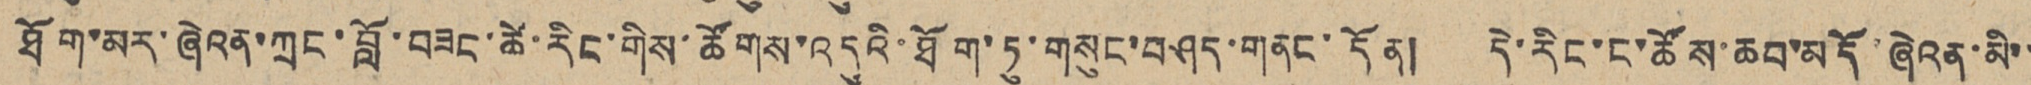ཐོག་མར་ཞེའན་ཀྲང་བློ་བཟང་ཚེ་རིང་གིས་ཚོགས་འདུའི་ཐོག་ཏུ་གསུང་བཤད་གནང་དོན། དེ་རིང་ང་ཚོས་ཆབ་མདོ་ཞེའན་མི་་
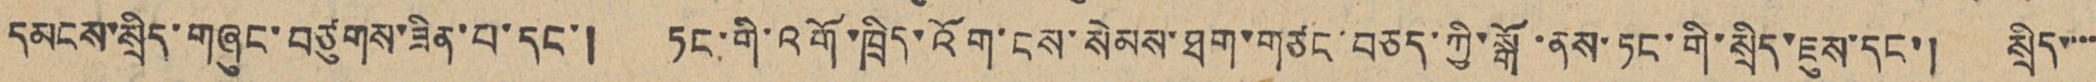དམངས་སྲིད་གཞུང་བཙུགས་ཟིན་པ་དང་། ཏང་གི་འགོ་ཁྲིད་འོག་ངས་སེམས་ཐག་གཙང་བཅད་ཀྱི་སྒོ་ནས་ཏང་གི་སྲིད་ཇུས་དང་། སྲིད་་་་
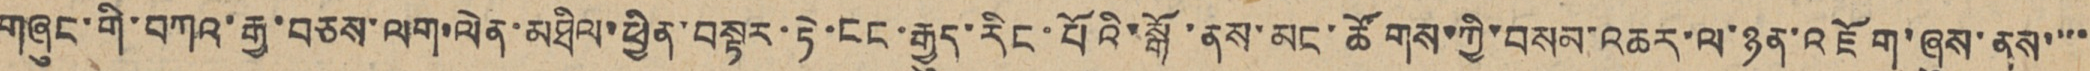གཞུང་གི་བཀའ་རྒྱ་བཅས་ལག་ལེན་མཐིལ་ཕྱིན་བསྟར་ཏེ་ངང་རྒྱུད་རིང་པོའི་སྒོ་ནས་མང་ཚོགས་ཀྱི་བསམ་འཆར་ལ་ཉན་འཇོག་ཞུས་ནས་་་་
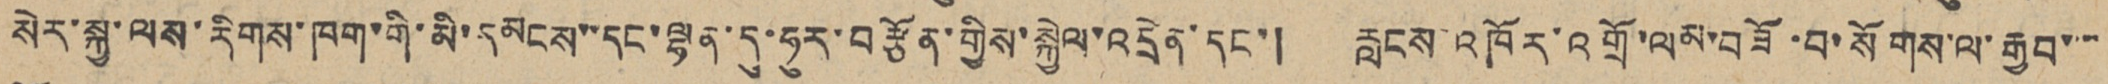སེར་སྐྱ་ལས་རིགས་ཁག་གི་མི་དམངས་དང་ལྷན་དུ་ཧུར་བརྩོན་གྱིས་སྐྱེལ་འདྲེན་དང་། རླངས་འཁོར་འགྲོ་ལམ་བཟོ་བ་སོགས་ལ་རྒྱབ་་་་
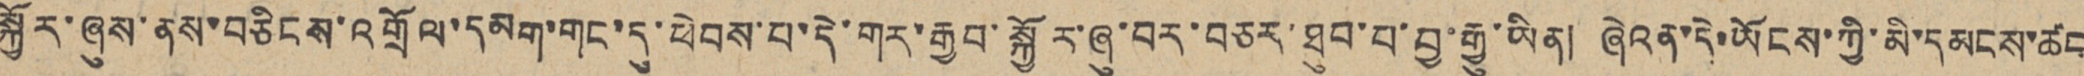སྐྱོར་ཞུས་ནས་བཅིངས་འགྲོལ་དམག་གང་དུ་ཕེབས་པ་དེ་གར་རྒྱབ་སྐྱོར་ཞུ་བར་བཅར་ཐུབ་པ་བྱ་རྒྱུ་ཡིན། ཞེའན་དེ་ཡོངས་ཀྱི་མི་དམངས་ཚང
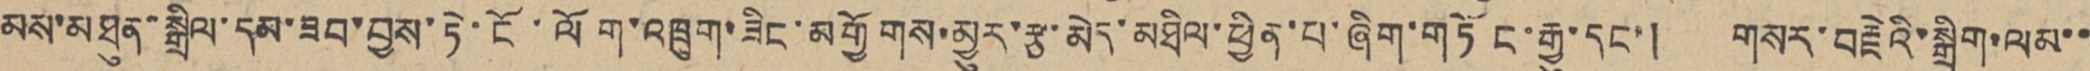མས་མཐུན་སྒྲིལ་དམ་ཟབ་བྱས་ཏེ་ངོ་ལོག་འཁྲུག་ཟིང་མགྱོགས་མྱུར་རྩ་མེད་མཐིལ་ཕྱིན་པ་ཞིག་གཏོང་རྒྱུ་དང་། གསར་བརྗེའི་སྒྲིག་ལམ་་
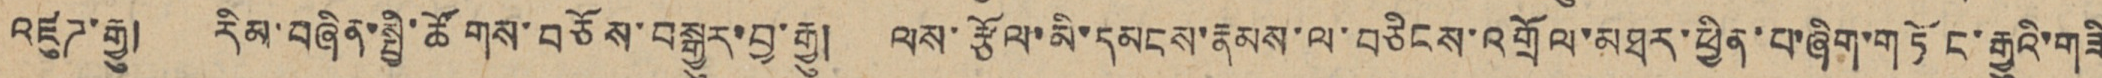འཛུཊ་རྒྱུ། རིམ་བཞིན་སྤྱི་ཚོགས་བཅོས་བསྒྱུར་བྱ་རྒྱུ། ལས་རྩོལ་མི་དམངས་རྣམས་ལ་བཅིངས་འགྲོལ་མཐར་ཕྱིན་པ་ཞིག་གཏོང་རྒྱུའི་གཟི
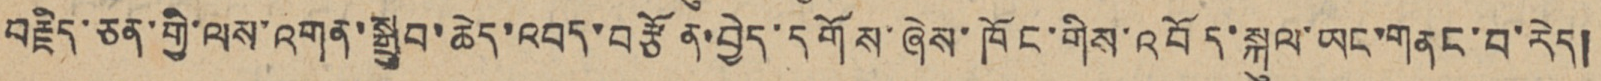བརྗིད་ཅན་གྱི་ལས་འགན་སྒྲུབ་ཆེད་འབད་བརྩོན་བྱེད་དགོས་ཞེས་ཁོང་གིས་འབོད་སྐུལ་ཡང་གནང་བ་རེད།
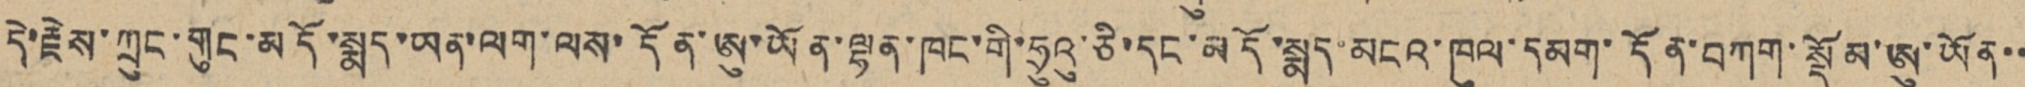དེ་རྗེས་ཀྲུང་གུང་མདོ་སྨད་ཡན་ལག་ལས་དོན་ཨུ་ཡོན་ལྷན་ཁང་གི་ཧྲུའུ་ཅི་དང་མདོ་སྨད་མངའ་ཁུལ་དམག་དོན་བཀག་སྡོམ་ཨུ་ཡོན་་
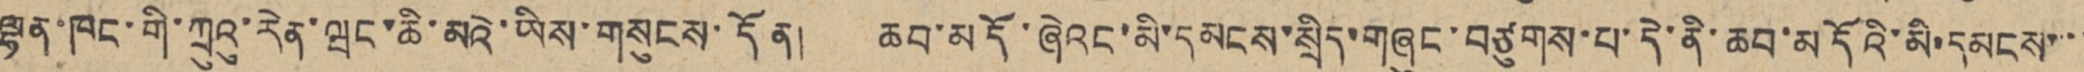ལྷན་ཁང་གི་ཀྲུའུ་རེན་ཝང་ཆི་མའེ་ཡིས་གསུངས་དོན། ཆབ་མདོ་ཞེའང་མི་དམངས་སྲིད་གཞུང་བཙུགས་པ་དེ་ནི་ཆབ་མདོའི་མི་དམངས་་་
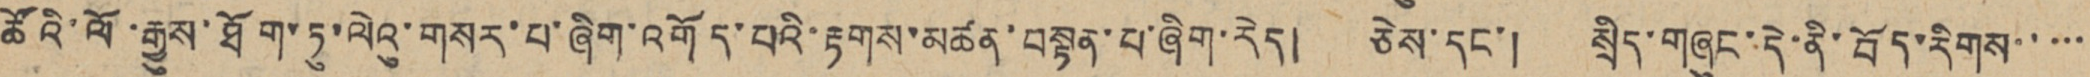ཚོའི་ལོ་རྒྱུས་ཐོག་ཏུ་ལེའུ་གསར་པ་ཞིག་འགོད་པའི་རྟགས་མཚན་བསྟན་པ་ཞིག་རེད། ཅེས་དང་། སྲིད་གཞུང་དེ་ནི་བོད་རིགས་་་་་
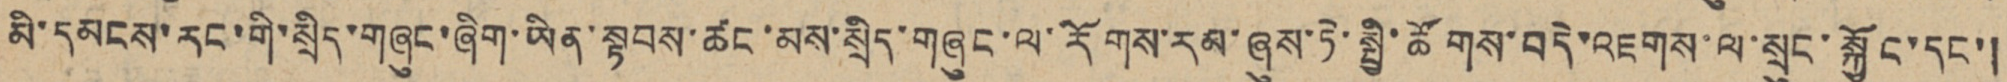མི་དམངས་རང་གི་སྲིད་གཞུང་ཞིག་ཡིན་སྟབས་ཚང་མས་སྲིད་གཞུང་ལ་རོགས་རམ་ཞུས་ཏེ་སྤྱི་ཚོགས་བེ་འཇགས་ལ་སྲུང་སྐྱོང་དང་།
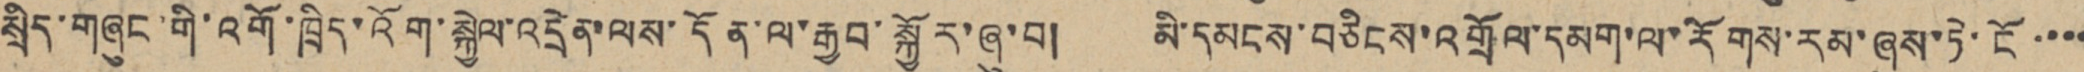སྲིད་གཞུང་གི་འགོ་ཁྲིད་འོག་སྐྱེལ་འདྲེན་ལས་དོན་ལ་རྒྱབ་སྐྱོར་ཞུ་བ། མི་དམངས་བཅིངས་འགྲོལ་དམག་ལ་རོགས་རམ་ཞུས་ཏེ་ངོ་་་་
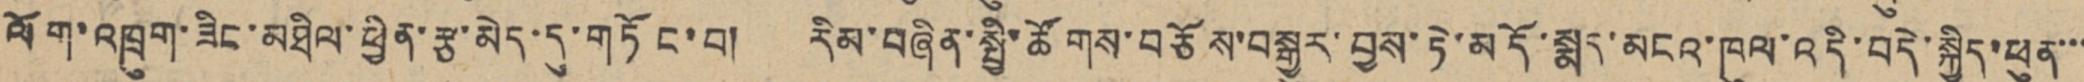ལོག་འཁྲུག་ཟིང་མཐིལ་ཕྱིན་རྩ་མེད་དུ་གཏོང་བ། རིམ་བཞིན་སྤྱི་ཚོགས་བཅོས་བསྒྱུར་བྱས་ཏེ་མདོ་སྨད་མངའ་ཁུལ་འདི་བདེ་སྐྱིད་ཕུན་་་
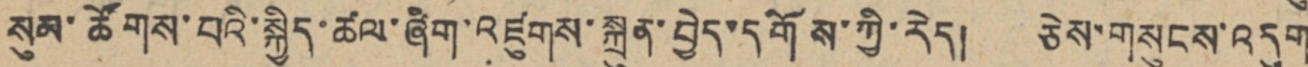སུམ་ཚོགས་པའི་སྐྱིད་ཚལ་ཞིག་འཛུགས་སྐྲུན་བྱེད་དགོས་ཀྱི་རེད། ཅེས་གསུངས་འདུག
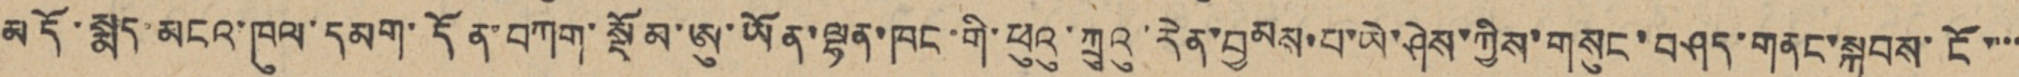མདོ་སྨད་མངའ་ཁུལ་དམག་དོན་བཀག་སྡོམ་ཨུ་ཡོན་ལྷན་ཁང་གི་ཕུའུ་ཀྲུའུ་རེན་བྱམས་པ་ཡེ་ཤེས་ཀྱིས་གསུང་བཤད་གནང་སྐབས་ངོ་་་་
